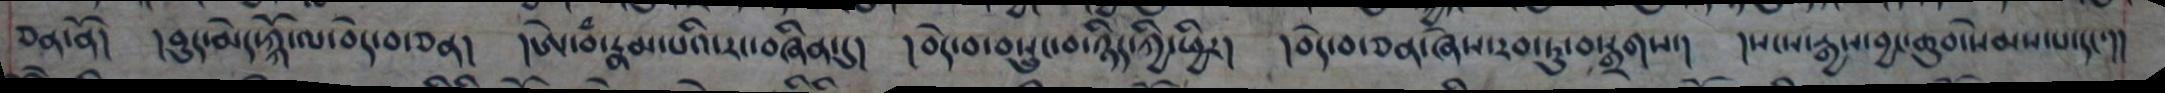ཅན་ནོ། །བུད་མེད་ཀྐོ་ལ་བདེ་བ་ཅན། །ཨེ་བཾ་རྣམ་པའི་རང་བཞིན་དུ། །བདེ་བ་བསྲུང་བ་ཉིད་ཀྱི་ཕྱིར། །བདེ་བ་ཅན་ཞེས་རབ་ཏུ་བསྒྲགས་། །སངས་རྒྱས་བྱང་ཆུབ་སེམས་པ་དང་།།
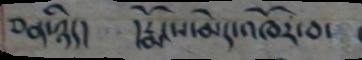ཅན་ཉིད། །རྨོངས་མེད་འཁོར་བ་
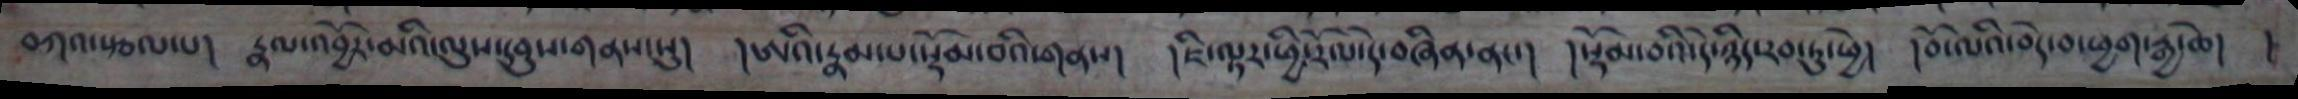བཀའ་སྩལ་པ། རྣལ་འབྱོར་མའི་ལུས་དབུས་གནས་སུ། །ཨའི་རྣམ་པ་སྡོམ་བའི་གནས། །ཇི་ལྟར་ཕྱི་རོལ་དེ་བཞིན་ནང་། །སྡོམ་བའི་དེ་ཉིད་རབ་ཏུ་ཕྱེ། །བོ་ལའི་བདེ་བ་ཕྱག་རྒྱ་ཆེ། །
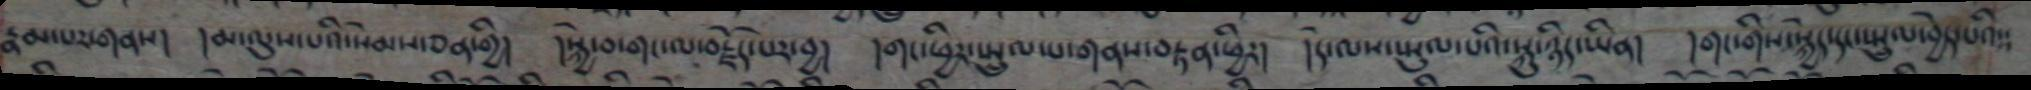རྣམ་པར་གནས། །མ་ལུས་པའི་སེམས་ཅན་གྱི། །སྐྱེ་བ་གང་ལ་བརྗོད་པར་བྱ། །གང་ཕྱིར་སྤྲུལ་པ་གནས་བརྟན་ཕྱིར། །དེ་ལས་སྤྲུལ་པའི་སྐུ་ཉིད་ཡིན། །གང་གིས་སྐྱེད་དང་སྤྲུལ་བྱེད་པའི༴༴
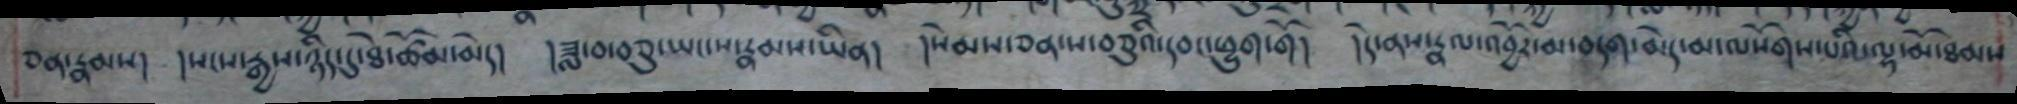ཅན་རྣམས། །སངས་རྒྱས་ཉིད་དུ་ཐེ་ཚོམ་མེད། །ཟླ་བ་བཅུ་ཡང་ས་རྣམས་ཡིན། །སེམས་ཅན་ས་བཅུའི་དབང་ཕྱུག་གོ། །དེ་ནས་རྣལ་འབྱོར་མ་བདག་མེད་ལསོགས་པའི་ལྷ་མོ་ཐམས
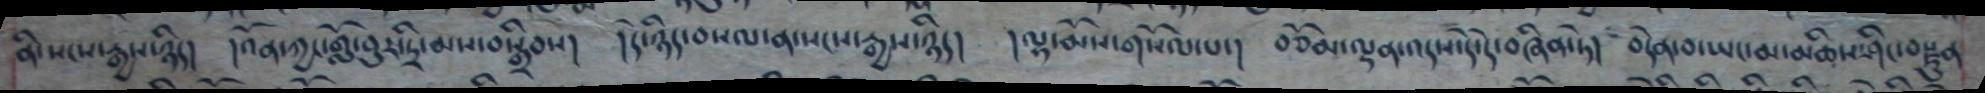ནི་སངས་རྒྱས་ཉིད། །འོན་ཀྱང་གློ་བུར་དྲི་མས་བསྒྲིབས། །དེ་ཉིད་བསལ་ན་སངས་རྒྱས་ཉིད། །ལྷ་མོས་གསོལ་པ་། བཅོམ་ལྡན་འདས་དེ་དེ་བཞིན་ཏེ། བདེན་བ་ཡང་མ་མཆིས་ཤིང་བསྫུན
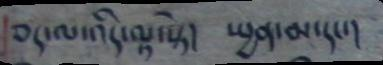ཅད་ལ་འདི་ལྟ་སྟེ། སྤྱན་མ་དང་།
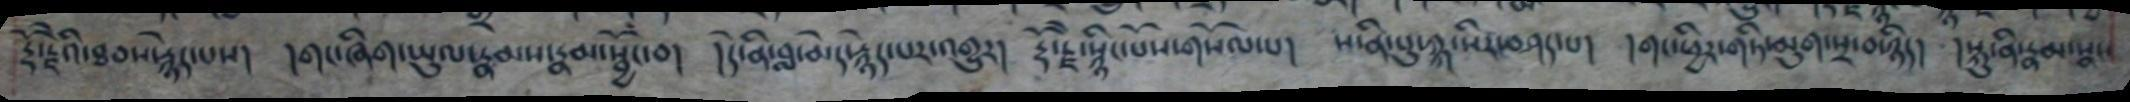རྡོ་རྗཻའི་ཐབས་རྙེད་པས། །གང་ཞིག་ཡུལ་རྣམས་རྣམ་སྦྱོང་བ། །དེ་ནི་བླ་མེད་རྙེད་པར་འགྱུར། རྡོ་རྗཻ་སྙིང་པོས་གསོལ་པ། ས་ནི་པུ་ཀྐ་སིར་བཤད་པ། །གང་ཕྱིར་གཏི་མུག་སྲ་བ་ཉིད། །སྐུ་ནི་རྣམ་སྣང་
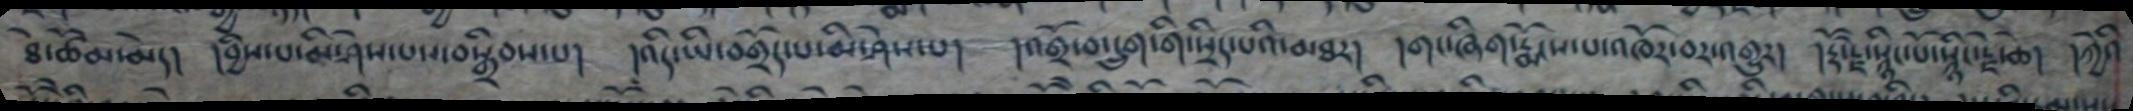ཐེ་ཚོམ་མེད། །བྱིས་པ་མི་ཤེས་པས་བསྒྲིབས་པ། །འདི་ཡི་བགྲོད་པ་མི་ཤེས་པ། །འགྲོ་བ་དྲུག་གི་སྲིད་པའི་མཐར། །གང་ཞིག་རྨོངས་པ་འཁོར་བར་འགྱུར། །རྡོ་རྗེ་སྙིང་པོ་སྙིང་རྗེ་ཆེ། །ཀྱེའི
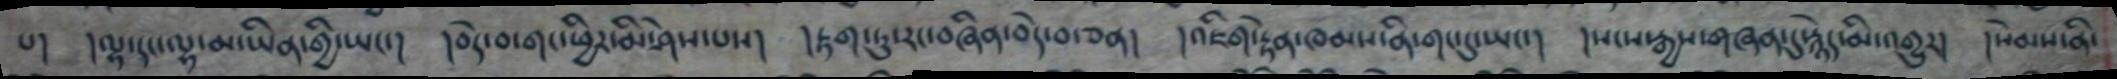པ། །ལྷ་དང་ལྷ་མ་ཡིན་གྱི་ཡང་། །བདེ་བ་གང་ཕྱིར་མི་ཤེས་པས། །རྟག་ཏུ་རང་བཞིན་བདེ་བ་ཅན། །འཇིག་རྟེན་ཁམས་ནི་གང་དུ་ཡང་། །སངས་རྒྱས་གཞན་དུ་རྙེད་མི་འགྱུར། །སེམས་ནི་
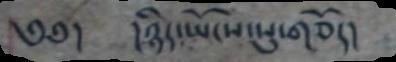༄༅། །ཉིད་ཡོངས་སུ་གཅོད།
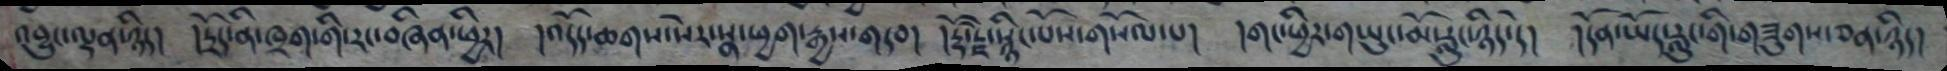འབྱུང་ལྡན་ཉིད། །དྲོད་ནི་ཁྲག་གི་རང་བཞིན་ཕྱིར། །འདོད་ཆགས་སེར་སྣ་ཕྱག་རྒྱས་གདབ། །རྡོ་རྗེ་སྙིང་པོས་གསོལ་པ། །གང་ཕྱིར་གཡུང་མོ་རླུང་ཉིད་དེ། །དོན་ཡོད་རླུང་གི་གཟུགས་ཅན་ཉིད།
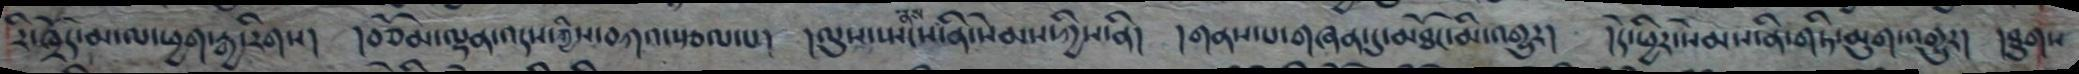རི་ཁྲོད་མ་ལ་ཕྱག་རྒྱ་རིགས། །བཅོམ་ལྡན་འདས་ཀྱིས་བཀའ་སྩལ་པ། །ལུས་སྤངས་ནས་སེམས་ཀྱིས་ནི། །གནས་པ་གཞན་དུ་མཐོང་མི་འགྱུར། །དེ་ཕྱིར་སེམས་ནི་གཏི་མུག་འགྱུར། །ཐུགས
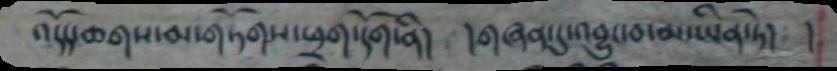འདོད་ཆགས་མ་གཏོགས་ཕྲག་དོག་ནི། །གཞན་དུ་འབྱུང་བ་མ་ཡིན་ཏེ། །
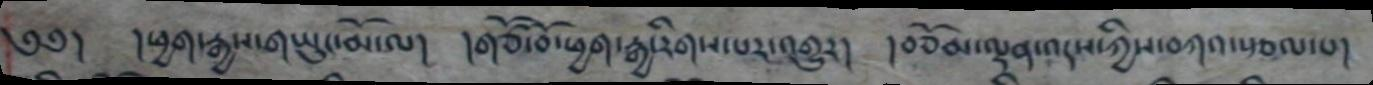༄༅། །ཕྱག་རྒྱས་གཡུང་མོ་ལ། །གཙོ་བོ་ཕྱག་རྒྱ་རིགས་པར་འགྱུར། །བཅོམ་ལྡན་འདས་ཀྱིས་བཀའ་སྩལ་པ།
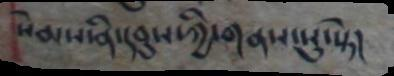སེམས་ནི་དབུས་ཀྱི་གནས་སུ་སྟེ།
